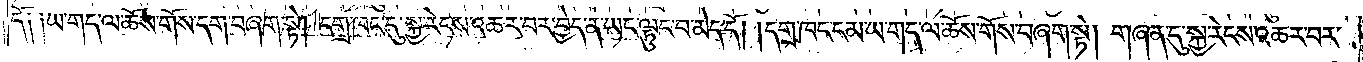དོ༑ ༑ཡ་གད་ལ་ཆོས་གོས་དག་བཞག་སྟེ། དགྲ་ཁང་དུ་སྐྱ་རེངས་འཆར་བར་བྱེད་ན་ཡང་ལྟུང་བ་མེད་དོ། །དགྲ་ཁང་ངམ་ཡ་གད་ལ་ཆོས་གོས་བཞག་སྟེ། གཞན་དུ་སྐྱ་རེངས་འཆར་བར་
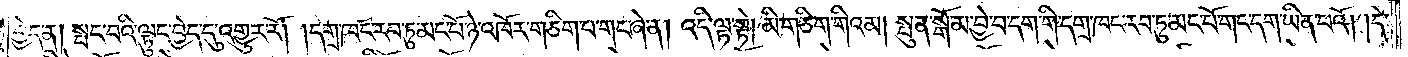བྱེད་ན། སྤང་བའི་ལྟུང་བྱེད་དུ་འགྱུར་རོ། །དགྲ་ཁང་རབ་ཏུ་མང་པོ་ཉེ་འཁོར་གཅིག་པ་གང་ཞེ་ན། འདི་ལྟ་སྟེ། མི་གཅིག་གིའམ། སྤུན་སྒོ་མ་བྱེ་བ་དག་གི་དགྲ་ཁང་རབ་ཏུ་མང་པོ་གང་དག་ཡིན་པའོ། །དེ་
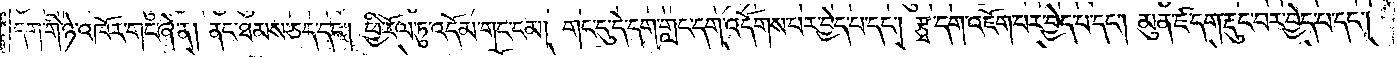དག་གི་ཉེ་འཁོར་གང་ཞེ་ན། ནང་ཐམས་ཅད་དང༌། ཕྱི་རོལ་ཏུ་འདོམ་གང་ངམ། གང་དུ་དེ་དག་གླང་དག་འདོགས་པར་བྱེད་པ་དང༌། རྩྭ་དག་འཇོག་པར་བྱེད་པ་དང༌། མུན་ཛ་དག་རྡུང་བར་བྱེད་པ་དང༌།
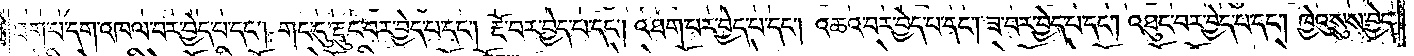ཐག་པ་དག་འཁལ་བར་བྱེད་པ་དང༌། གང་དུ་རྡུང་བར་བྱེད་པ་དང༌། རྔོ་བར་བྱེད་པ་དང༌། འཐག་པར་བྱེད་པ་དང༌། འཆའ་བར་བྱེད་པ་དང༌། ཟ་བར་བྱེད་པ་དང༌། འཐུང་བར་བྱེད་པ་དང༌། ཁྱེའུ་སུས་བྱེད་
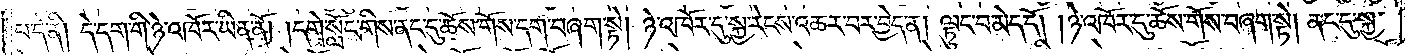པ་དེ་ནི། དེ་དག་གི་ཉེ་འཁོར་ཡིན་ནོ། །དགེ་སློང་གིས་ནང་དུ་ཆོས་གོས་དག་བཞག་སྟེ། ཉེ་འཁོར་དུ་སྐྱ་རེངས་འཆར་བར་བྱེད་ན། ལྟུང་བ་མེད་དོ། །ཉེ་འཁོར་དུ་ཆོས་གོས་བཞག་སྟེ། ནང་དུ་སྐྱ་
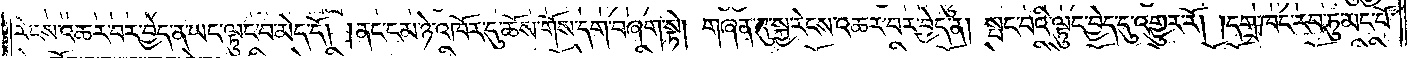རེངས་འཆར་བར་བྱེད་ན་ཡང་ལྟུང་བ་མེད་དོ། །ནང་ངམ་ཉེ་འཁོར་དུ་ཆོས་གོས་དག་བཞག་སྟེ། གཞན་དུ་སྐྱ་རེངས་འཆར་བར་བྱེད་ན། སྤང་བའི་ལྟུང་བྱེད་དུ་འགྱུར་རོ། །དགྲ་ཁང་རབ་ཏུ་མང་པོ་
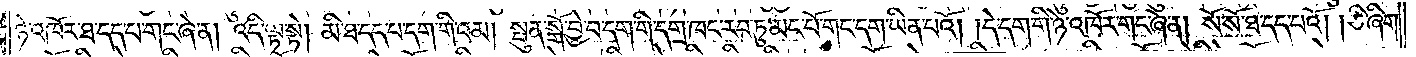ཉེ་འཁོར་ཐ་དད་པ་གང་ཞེ་ན། འདི་ལྟ་སྟེ། མི་ཐ་དད་པ་དག་གིའམ། སྤུན་སྒོ་བྱེ་བ་དག་གི་དགྲ་ཁང་རབ་ཏུ་མང་པོ་གང་དག་ཡིན་པའོ། །དེ་དག་གི་ཉེ་འཁོར་གང་ཞེ་ན། སོ་སོ་ཐ་དད་པའོ། །ཅི་ཞིག་
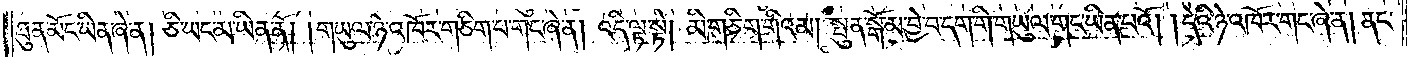ཐུན་མོང་ཡིན་ཞེ་ན། ཅི་ཡང་མ་ཡིན་ནོ། །གཡུལ་ཉེ་འཁོར་གཅིག་པ་གང་ཞེ་ན། འདི་ལྟ་སྟེ། མི་གཅིག་གིའམ། སྤུན་སྒོ་མ་བྱེ་བ་དག་གི་གཡུལ་གང་ཡིན་པའོ། །དེའི་ཉེ་འཁོར་གང་ཞེ་ན། ནང་
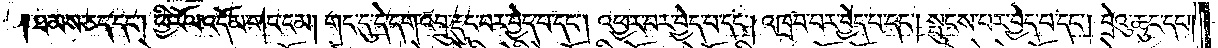ཐམས་ཅད་དང༌། ཕྱི་རོལ་འདོམ་གང་ངམ། གང་དུ་དེ་དག་འབྲུ་རྡུང་བར་བྱེད་པ་དང༌། འཕྱར་བར་བྱེད་པ་དང༌། འཁྲབ་པར་བྱེད་པ་དང༌། སྤུངས་པར་བྱེད་པ་དང༌། བྲེའུ་ཆུང་དང༌།
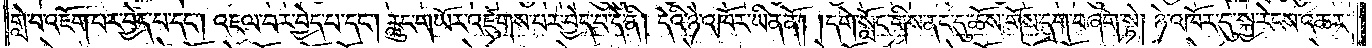གླེ་བ་འཇོག་པར་བྱེད་པ་དང༌། འཇལ་བར་བྱེད་པ་དང༌། རླུང་གཡོར་འཛུགས་པར་བྱེད་པ་དེ་ནི། དེའི་ཉེ་འཁོར་ཡིན་ནོ། །དགེ་སློང་གིས་ནང་དུ་ཆོས་གོས་དག་བཞག་སྟེ། ཉེ་འཁོར་དུ་སྐྱ་རེངས་འཆར་
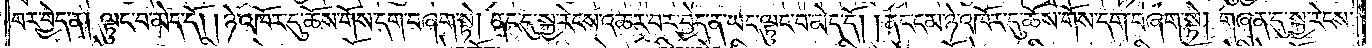བར་བྱེད་ན། ལྟུང་བ་མེད་དོ། །ཉེ་འཁོར་དུ་ཆོས་གོས་དག་བཞག་སྟེ། ནང་དུ་སྐྱ་རེངས་འཆར་བར་བྱེད་ན་ཡང་ལྟུང་བ་མེད་དོ། །ནང་ངམ་ཉེ་འཁོར་དུ་ཆོས་གོས་དག་བཞག་སྟེ། གཞན་དུ་སྐྱ་རེངས་
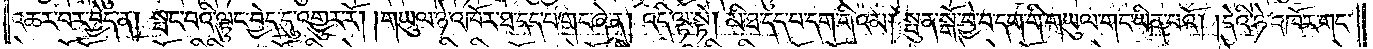འཆར་བར་བྱེད་ན། སྤང་བའི་ལྟུང་བྱེད་དུ་འགྱུར་རོ། །གཡུལ་ཉེ་འཁོར་ཐ་དད་པ་གང་ཞེ་ན། འདི་ལྟ་སྟེ། མི་ཐ་དད་པ་དག་གིའམ། སྤུན་སྒོ་བྱེ་བ་དག་གི་གཡུལ་གང་ཡིན་པའོ། །དེའི་ཉེ་འཁོར་གང་
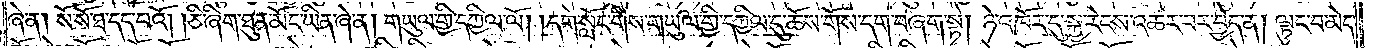ཞེ་ན། སོ་སོ་ཐ་དད་པའོ། །ཅི་ཞིག་ཐུན་མོང་ཡིན་ཞེ་ན། གཡུལ་གྱི་དཀྱིལ་ལོ། །དགེ་སློང་གིས་གཡུལ་གྱི་དཀྱིལ་དུ་ཆོས་གོས་དག་བཞག་སྟེ། ཉེ་འཁོར་དུ་སྐྱ་རེངས་འཆར་བར་བྱེད་ན། ལྟུང་བ་མེད་
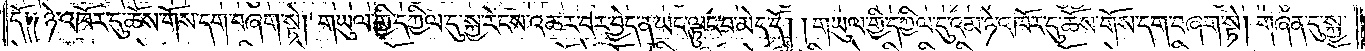དོ༑ ༑ཉེ་འཁོར་དུ་ཆོས་གོས་དག་བཞག་སྟེ། གཡུལ་གྱི་དཀྱིལ་དུ་སྐྱ་རེངས་འཆར་བར་བྱེད་ན་ཡང་ལྟུང་བ་མེད་དོ། །གཡུལ་གྱི་དཀྱིལ་དུ་འམ་ཉེ་འཁོར་དུ་ཆོས་གོས་དག་བཞག་སྟེ། གཞན་དུ་སྐྱ་
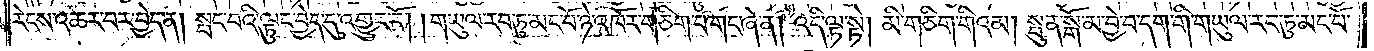རེངས་འཆར་བར་བྱེད་ན། སྤང་བའི་ལྟུང་བྱེད་དུ་འགྱུར་རོ། །གཡུལ་རབ་ཏུ་མང་པོ་ཉེ་འཁོར་གཅིག་པ་གང་ཞེ་ན། འདི་ལྟ་སྟེ། མི་གཅིག་གིའམ། སྤུན་སྒོ་མ་བྱེ་བ་དག་གི་གཡུལ་རབ་ཏུ་མང་པོ་
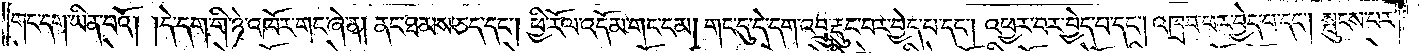གང་དག་ཡིན་པའོ། །དེ་དག་གི་ཉེ་འཁོར་གང་ཞེ་ན། ནང་ཐམས་ཅད་དང༌། ཕྱི་རོལ་འདོམ་གང་ངམ། གང་དུ་དེ་དག་འབྲུ་རྡུང་བར་བྱེད་པ་དང༌། འཕྱར་བར་བྱེད་པ་དང༌། འཁྲབ་པར་བྱེད་པ་དང༌། སྤུངས་པར་
